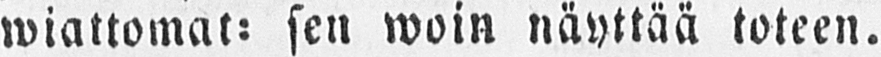wiattomat: sen woin näyttää toteen.
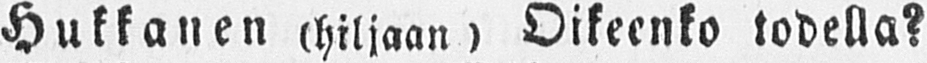Hukkanen (hiljaan) Oikeenko todella?
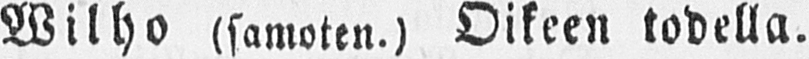Wilho (samoten.) Oikeen todella.
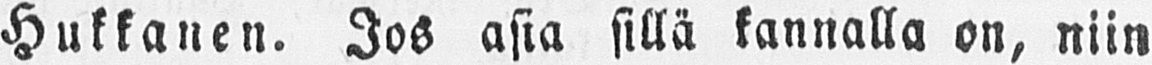Hukkanen. Jos asia sillä kannalla on, niin
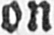on — —
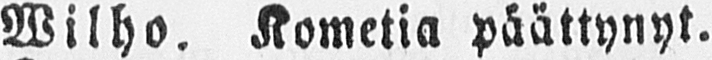Wilho. Kometia päättynyt.
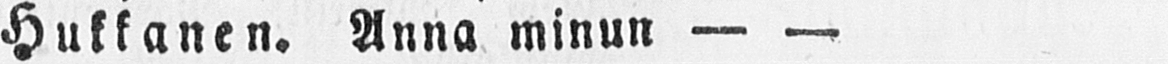Hukkanen. Anna minun — —
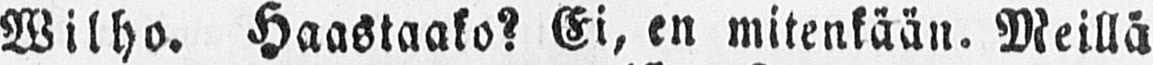Wilho. Haastaako? Ei, en mitenkään. Meillä
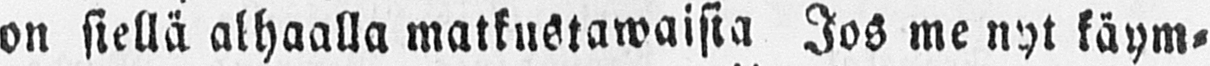on siellä alhaalla matkustawaisia Jos me nyt käym-
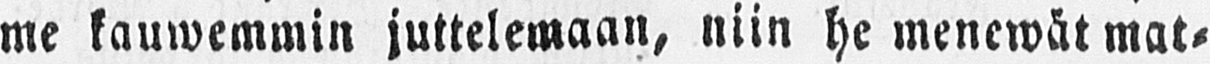me kauwemmin juttelemaan, niin he menewät mat-
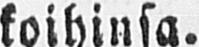koihinsa.
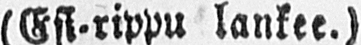(Esi-rippu lankee.)
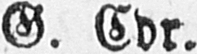G. Cdr.
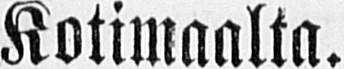Kotimaalta.
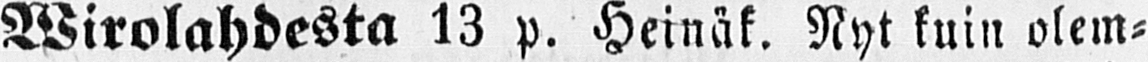Wirolahdesta 13 p. Heinät. Nyt kuin olem-
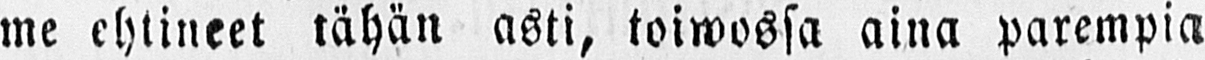me ehtineet tähän asti, toiwossa aina parempia
